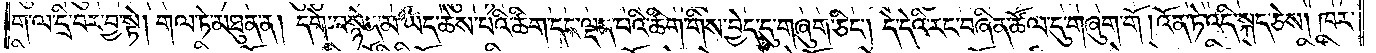ག་ལ་དྲི་བར་བྱ་སྟེ། གལ་ཏེ་མཐུན་ན། དགེ་བསྙེན་མ་ཡིད་ཆེས་པའི་ཚིག་དང་ལྡན་པའི་ཚིག་གིས་བྱེད་དུ་གཞུག་ཅིང༌། དེ་དེའི་རང་བཞིན་ཚོལ་དུ་གཞུག་གོ །འོན་ཏེ་འདི་སྐད་ཅེས། ཁར་
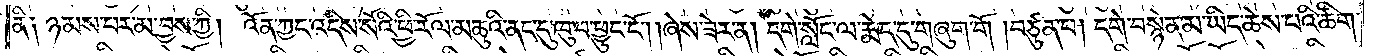ནི༑ ཉམས་པར་མ་བྱས་ཀྱི། འོན་ཀྱང་འདིས་སོའི་ཕྱི་རོལ་མཆུའི་ནང་དུ་ཁུ་བ་ཕྱུང་ངོ༌། །ཞེས་ཟེར་ན། དགེ་སློང་ལ་རྨེད་དུ་གཞུག་གོ །བཙུན་པ། དགེ་བསྙེན་མ་ཡིད་ཆེས་པའི་ཚིག་
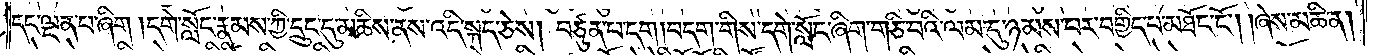དང་ལྡན་པ་ཞིག །དགེ་སློང་རྣམས་ཀྱི་དྲུང་དུ་མཆིས་ནས་འདི་སྐད་ཅེས། བཙུན་པ་དག །བདག་གིས་དགེ་སློང་ཞིག་གཅི་བའི་ལམ་དུ་ཉམས་པར་བགྱིད་པ་མཐོང་ངོ༌། །ཞེས་མཆི་ན།
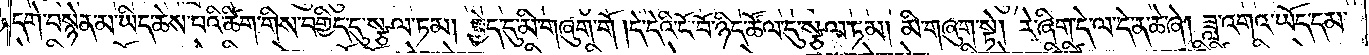དགེ་བསྙེན་མ་ཡིད་ཆེས་པའི་ཚིག་གིས་བགྱིད་དུ་སྩལ་ཏམ། བྱེད་དུ་མི་གཞུག་གོ །དེ་དེའི་ངོ་བོ་ཉིད་ཚོལ་དུ་སྩལ་ཏམ། མི་གཞུག་སྟེ། རེ་ཞིག་དེ་ལ་དེ་ན་ཆེ་ཞེ། ཟླ་འགའ་ཡོད་དམ་
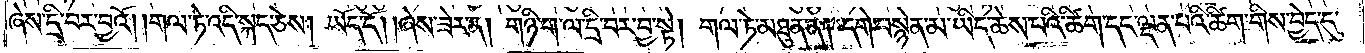ཞེས་དྲི་བར་བྱའོ། །གལ་ཏེ་འདི་སྐད་ཅེས། ཡོད་དོ། །ཞེས་ཟེར་ན། གཉི་ག་ལ་དྲི་བར་བྱ་སྟེ། གལ་ཏེ་མཐུན་ན། དགེ་བསྙེན་མ་ཡིད་ཆེས་པའི་ཚིག་དང་ལྡན་པའི་ཚིག་གིས་བྱེད་དུ་
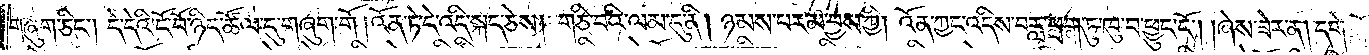གཞུག་ཅིང༌། དེ་དེའི་ངོ་བོ་ཉིད་ཚོལ་དུ་གཞུག་གོ །འོན་ཏེ་དེ་འདི་སྐད་ཅེས། གཅི་བའི་ལམ་དུ་ནི། ཉམས་པར་མ་བྱས་ཀྱི། འོན་ཀྱང་འདིས་བརླ་ཕྲག་ཏུ་ཁུ་བ་ཕྱུང་ངོ༌། །ཞེས་ཟེར་ན། དགེ་
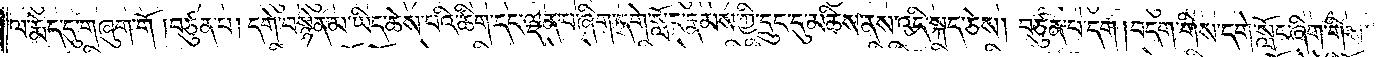ལ་རྨེད་དུ་གཞུག་གོ །བཙུན་པ། དགེ་བསྙེན་མ་ཡིད་ཆེས་པའི་ཚིག་དང་ལྡན་པ་ཞིག་དགེ་སློང་རྣམས་ཀྱི་དྲུང་དུ་མཆིས་ནས་འདི་སྐད་ཅེས། བཙུན་པ་དག །བདག་གིས་དགེ་སློང་ཞིག་གིས་
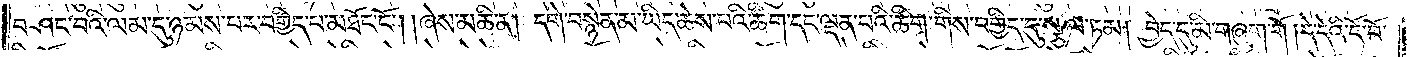བཤང་བའི་ལམ་དུ་ཉམས་པར་བགྱིད་པ་མཐོང་ངོ༌། །ཞེས་མཆི་ན། དགེ་བསྙེན་མ་ཡིད་ཆེས་པའི་ཚིག་དང་ལྡན་པའི་ཚིག་གིས་བགྱིད་དུ་སྩལ་ཏམ། བྱེད་དུ་མི་གཞུག་གོ །དེ་དེའི་ངོ་བོ་
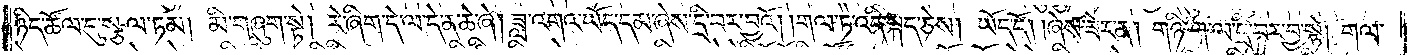ཉིད་ཚོལ་དུ་སྩལ་ཏམ། མི་གཞུག་སྟེ། རེ་ཞིག་དེ་ལ་དེ་ན་ཆེ་ཞེ། ཟླ་འགའ་ཡོད་དམ་ཞེས་དྲི་བར་བྱའོ། །གལ་ཏེ་འདི་སྐད་ཅེས། ཡོད་དོ། །ཞེས་ཟེར་ན། གཉི་ག་ལ་དྲི་བར་བྱ་སྟེ། གལ་
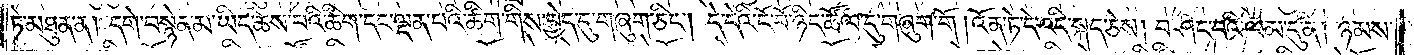ཏེ་མཐུན་ན། དགེ་བསྙེན་མ་ཡིད་ཆེས་པའི་ཚིག་དང་ལྡན་པའི་ཚིག་གིས་བྱེད་དུ་གཞུག་ཅིང༌། དེ་དེའི་ངོ་བོ་ཉིད་ཚོལ་དུ་གཞུག་གོ །འོན་ཏེ་དེ་འདི་སྐད་ཅེས། བཤང་བའི་ལམ་དུ་ནི། ཉམས་
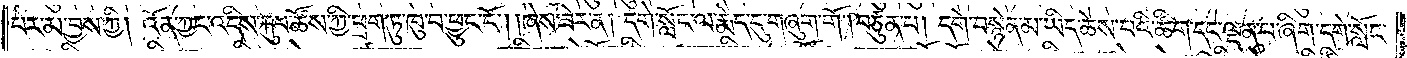པར་མ་བྱས་ཀྱི། འོན་ཀྱང་འདིས་རྐུབ་ཚོས་ཀྱི་ཕྲག་ཏུ་ཁུ་བ་ཕྱུང་ངོ༌། །ཞེས་ཟེར་ན། དགེ་སློང་ལ་རྨེད་དུ་གཞུག་གོ །བཙུན་པ། དགེ་བསྙེན་མ་ཡིད་ཆེས་པའི་ཚིག་དང་ལྡན་པ་ཞིག་དགེ་སློང་
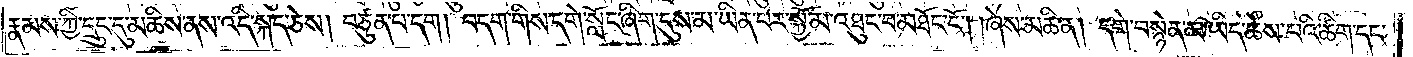རྣམས་ཀྱི་དྲུང་དུ་མཆིས་ནས་འདི་སྐད་ཅེས། བཙུན་པ་དག། བདག་གིས་དགེ་སློང་ཞིག་དུས་མ་ཡིན་པར་སྐྱོ་མ་འཐུང་བ་མཐོང་ངོ༌། །ཞེས་མཆི་ན། དགེ་བསྙེན་མ་ཡིད་ཆེས་པའི་ཚིག་དང་
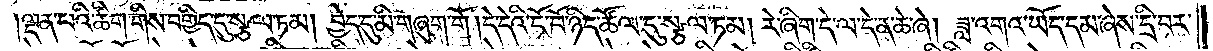།ལྡན་པའི་ཚིག་གིས་བགྱིད་དུ་སྩལ་ཏམ། བྱེད་དུ་མི་གཞུག་གོ །དེ་དེའི་ངོ་བོ་ཉིད་ཚོལ་དུ་སྩལ་ཏམ། རེ་ཞིག་དེ་ལ་དེ་ན་ཆེ་ཞེ། ཟླ་འགའ་ཡོད་དམ་ཞེས་དྲི་བར་
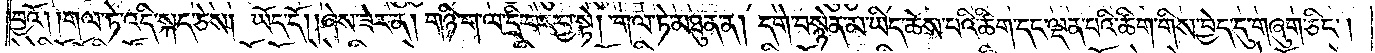བྱའོ། །གལ་ཏེ་འདི་སྐད་ཅེས། ཡོད་དོ། །ཞེས་ཟེར་ན། གཉི་ག་ལ་དྲི་བར་བྱ་སྟེ། གལ་ཏེ་མཐུན་ན། དགེ་བསྙེན་མ་ཡིད་ཆེས་པའི་ཚིག་དང་ལྡན་པའི་ཚིག་གིས་བྱེད་དུ་གཞུག་ཅིང༌།
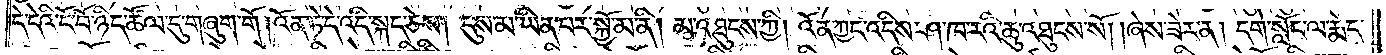དེ་དེའི་ངོ་བོ་ཉིད་ཚོལ་དུ་གཞུག་གོ །འོན་ཏེ་དེ་འདི་སྐད་ཅེས། དུས་མ་ཡིན་པར་སྐྱོ་མ་ནི། མ་འཐུངས་ཀྱི། འོན་ཀྱང་འདིས་ཤ་ཁ་རའི་ཆུ་འཐུངས་སོ། །ཞེས་ཟེར་ན། དགེ་སློང་ལ་རྨེད་
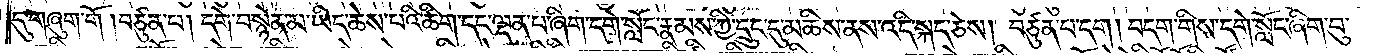དུ་གཞུག་གོ །བཙུན་པ། དགེ་བསྙེན་མ་ཡིད་ཆེས་པའི་ཚིག་དང་ལྡན་པ་ཞིག་དགེ་སློང་རྣམས་ཀྱི་དྲུང་དུ་མཆིས་ནས་འདི་སྐད་ཅེས། བཙུན་པ་དག །བདག་གིས་དགེ་སློང་ཞིག་བུ་
